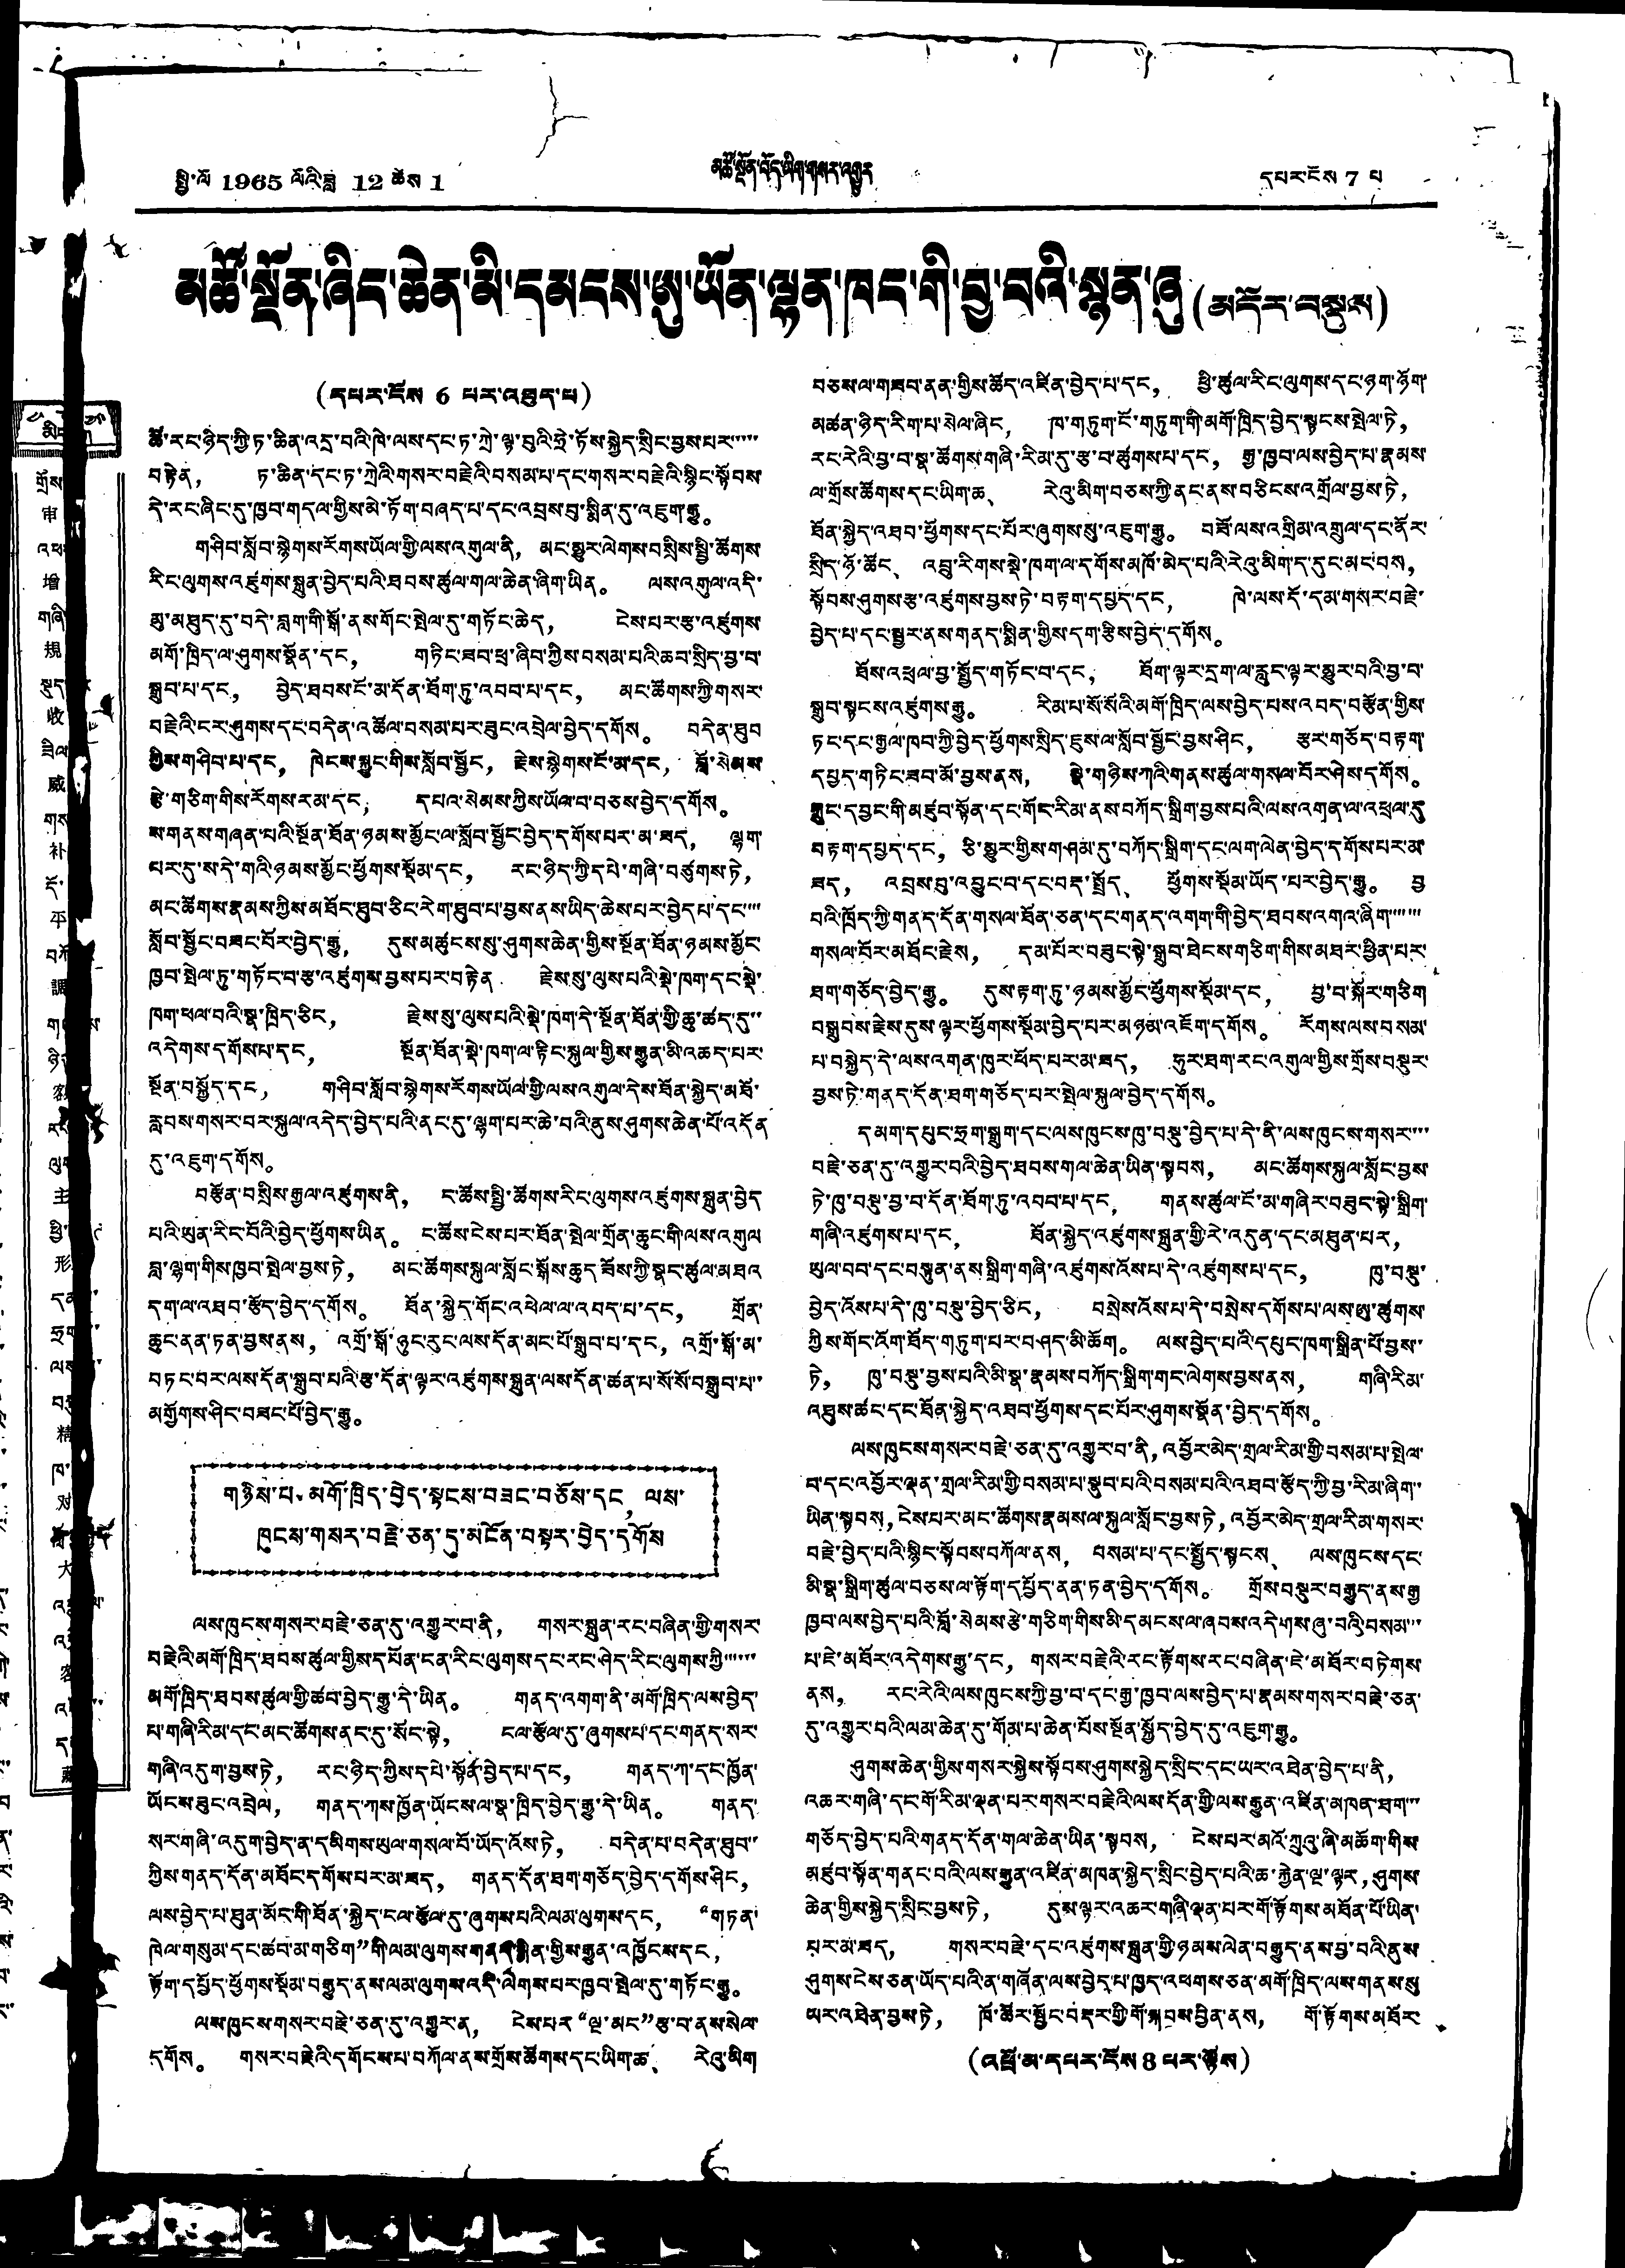མིང ག
གྲོས
审
འཕ
增
གཞི
規
སྡུད  ར
收
ཟིལ
威
གས
补
དོ་
平
བཀོ
調
ག   ས་
ཉིད་
客
རང་
ལུང
主
ཕྱི་  ཊ
形
དམ  ་
ཧྲག  ་་
ལས  ་
བ
精
ཁ་
对
བློ  སྐྱེད
大
འ  ལ་
འ
客
འ  ་་
ད
藏
སྤྱི་ལོ 1965 ལོའི་ཟླ་ 12 ཚེས 1 མཚོ་སྔོན་བོད་ཡིག་གསར་འགྱུར དཔར་ངོས 7 པ
མཚོ་སྔོན་ཞིང་ཆེན་མི་དམངས་ཨུ་ཡོན་ལྷན་ཁང་གི་བྱ་བའི་སྙན་ཞུ(མདོར་བསྡུས)
(དཔར་ངོས 6 པར་འཐུད་པ)
ཚོ་རང་ཉིད་ཀྱི་ཏ་ཆིན་འདྲ་བའི་ཁེ་ལས་དང་ཏ་ཀྲེ་ལྟ་བུའི་ཧྲེ་ཏོས་སྐྱེད་སྲིང་བྱས་པར་་་་་
བརྟེན， ཏ་ཆིན་དང་ཏ་ཀྲེའི་གསར་བརྗེའི་བསམ་པ་དང་གསར་བརྗེའི་སྙིང་སྟོབས་
དེ་རང་ཞིང་དུ་ཁྱབ་གདལ་གྱིས་མེ་ཏོག་བཞད་པ་དང་འབྲས་བུ་སྨིན་དུ་འཇུག་རྒྱུ。
གཤིབ་སློབ་སྙེགས་རོགས་ཡོལ་གྱི་ལས་འགུལ་ནི， མང་མྱུར་ལེགས་བསྲིས་སྤྱི་ཚོགས་
རིང་ལུགས་འཛུགས་སྐྲུན་བྱེད་པའི་ཐབས་ཚུལ་གལ་ཆེན་ཞིག་ཡིན。 ལས་འགུལ་འདི་
མུ་མཐུད་དུ་བདེ་བླག་གི་སྒོ་ནས་གོང་སྤེལ་དུ་གཏོང་ཆེད， ངེས་པར་རྩ་འཛུགས་
མགོ་ཁྲིད་ལ་ཤུགས་སྣོན་དང， གཏིང་ཟབ་ཕྲ་ཞིབ་ཀྱིས་བསམ་པའི་ཆབ་སྲིད་བྱ་བ་
སྒྲུབ་པ་དང， བྱེད་ཐབས་ངོ་མ་དོན་ཐོག་ཏུ་འབབ་པ་དང， མང་ཚོགས་ཀྱི་གསར་
བརྗེའི་ངར་ཤུགས་དང་བདེན་འཚོལ་བསམ་པར་ཟུང་འབྲེལ་བྱེད་དགོས。 བདེན་ཐུབ་
ཀྱིས་གཤིབ་པ་དང， ཁེངས་སྐྱུང་གིས་སློབ་སྦྱོང， རྗེས་སྙེགས་ངོ་མ་དང， བློ་སེམས
རྩེ་གཅིག་གིས་རོགས་རམ་དང， དཔའ་སེམས་ཀྱིས་ཡོལ་བ་བཅས་བྱེད་དགོས。
ས་གནས་གཞན་པའི་སྔོན་ཐོན་ཉམས་མྱོང་ལ་སློབ་སྦྱོང་བྱེད་དགོས་པར་མ་ཟད， ལྷག་
པར་དུ་ས་དེ་གའི་ཉམས་མྱོང་ཕྱོགས་སྡོམ་དང， རང་ཉིད་ཀྱི་དཔེ་གཞི་བཙུགས་ཏེ，
མང་ཚོགས་རྣམས་ཀྱིས་མཐོད་ཐུབ་ཅིང་རེག་ཐུབ་པ་བྱས་ནས་ཡིད་ཆེས་པར་བྱེད པ་དང་་་་
སློབ་སྦྱོང་བཟང་པོར་བྱེད་རྒྱུ， དུས་མཚུངས་སུ་ཤུགས་ཆེན་གྱིས་སྔོན་ཐོན་ཉམས་མྱོང་
ཁྱབ་སྤེལ་ཏུ་གཏོང་བ་རྩ་འཛུགས་བྱས་པར་བརྟེན རྗེས་སུ་ལུས་པའི་སྡེ་ཁག་དང་སྡེ་
ཁག་ཕལ་བའི་སྣ་ཁྲིད་ཅིང， རྗེས་སུ་ལུས་པའི་སྡེ་ཁག་དེ་སྔོན་ཐོན་གྱི་ཆུ་ཚད་དུ་་
འདེགས་དགོས་པ་དང， སྔོན་ཐོན་སྡེ་ཁག་ལ་རྟིང་སྐུལ་གྱིས་རྒྱུན་མི་འཆད་པར་
སྔོན་བསྐྱོད་དང，  གཤིབ་སློབ་སྙེགས་རོགས་ཡོལ་གྱི་ལས་འགུལ་དེས་ཐོན་སྐྱེད་མཐོ་
རླབས་གསར་བར་སྐུལ་འདེད་བྱེད་པའི་ནང་དུ་ལྷག་པར་ཆེ་བའི་ནུས་ཤུགས་ཆེན་པོ་འདོན
དུ་འཇུག་དགོས。
བརྩོན་བསྲིས་རྒྱལ་འཛུགས་ནི， ང་ཚོས་སྤྱི་ཚོགས་རིང་ལུགས་འཛུགས་སྐྲུན་བྱེད་
པའི་ཡུན་རིང་བོའི་བྱེད་ཕྱོགས་ཡིན。 ང་ཚོས་ངེས་པར་ཐོན་སྤེལ་གྲོན་ཆུང་གི་ལས་འགུལ
བླ་ལྷག་གིས་ཁྱབ་སྤེལ་བྱས་ཏེ， མང་ཚོགས་སྐུལ་སློང་སྒོས་ཆུད་ཟོས་ཀྱི་སྣང་ཚུལ་མཐའ་
དག་ལ་འཐབ་རྩོད་བྱེད་དགོས。 ཐོན་སྐྱེད་གོང་འཕེལ་ལ་འབད་པ་དང， གྲོན་
ཆུང་ནན་ཏན་བྱས་ནས， འགྲོ་སྒོ་ཉུང་རུང་ལས་དོན་མང་པོ་སྒྲུབ་པ་དང， འགྲོ་སྒོ་མ་
བཏང་བར་ལས་དོན་སྒྲུབ་པའི་རྩ་དོན་ལྟར་འཛུགས་སྐྲུན་ལས་དོན་ཚན་པ་སོ་སོ་བསྒྲུབ་པ་་
མགྱོགས་ཤིང་བཟང་པོ་བྱེད་རྒྱུ。
གཉིས་པ、 མགོ་ཁྲིད་བྱེད་སྟངས་བཟང་བཅོས་དང， ལས་
ཁུངས་གསར་བརྗེ་ཅན་དུ་མངོན་བསྟར་བྱེད་དགོས
ལས་ཁུངས་གསར་བརྗེ་ཅན་དུ་འགྱུར་བ་ནི， གསར་སྐྲུན་རང་བཞིན་གྱི་གསར་
བརྗེའི་མགོ་ཁྲིད་ཐབས་ཚུལ་གྱིས་དཔོན་ངན་རིང་ལུགས་དང་རང་ཤེད་རིང་ལུགས་ཀྱི་་་་་་
མགོ་ཁྲིད་ཐབས་ཚུལ་གྱི་ཚབ་བྱེད་རྒྱུ་དེ་ཡིན。 གནད་འགག་ནི་མགོ་ཁྲིད་ལས་བྱེད་
པ་གཞི་རིམ་དང་མང་ཚོགས་ནང་དུ་སོང་སྟེ， ངལ་རྩོལ་དུ་ཞུགས་པ་དང་གནད་སར་
གཞི་འདུག་བྱས་ཏེ， རང་ཉིད་ཀྱིས་དཔེ་སྟོན་བྱེད་པ་དང， གནད་ཀ་དང་ཁྱོན་
ཡོངས་ཟུང་འབྲེལ， གནད་ཀས་ཁྱོན་ཡོངས་ལ་སྣ་ཁྲིད་བྱེད་རྒྱུ་དེ་ཡིན。 གནད
སར་གཞི་འདུག་བྱེད་ན་དམིགས་ཡུལ་གསལ་བོ་ཡོད་འོས་ཏེ， བདེན་པ་བདེན་ཐུབ་་
ཀྱིས་གནད་དོན་མཐོང་དགོས་པར་མ་ཟད， གནད་དོན་ཐག་གཅོད་བྱེད་དགོས་ཤིང，
ལས་བྱེད་པ་ཐུན་མོང་གི་ཐོན་སྐྱེད་ངལ་རྩོལ་དུ་ཞུགས་པའི་ལམ་ལུགས་དང， “གཏན་
ཁེལ་གསུམ་དང་ཚབ་མ་གཅིག”གི་ལམ་ལུགས་གནད་སྨིན་གྱིས་རྒྱུན་འཁྱོངས་དང，
རྟོག་དཔྱོད་ཕྱོགས་སྡོམ་བརྒྱུད་ནས་ལམ་ལུགས་འདི་ལེགས་པར་ཁྱབ་སྤེལ་དུ་གཏོང་རྒྱུ。
ལས་ཁུངས་གསར་བརྗེ་ཅན་དུ་འགྱུར་ན， ངེས་པར“ལྔ་མང”རྩ་བ་ནས་སེལ་
དགོས。 གསར་བརྗེའི་དགོངས་པ་བཀོལ་ནས་གྲོས་ཚོགས་དང་ཡིག་ཆ、 རེའུ་མིག་
བཅས་ལ་གཟབ་ནན་གྱིས་ཚོད་འཛིན་བྱེད་པ་དང， ཕྱི་ཚུལ་རིང་ལུགས་དང་ཉག་ཉོག་
མཚན་ཉིད་རིག་པ་སེལ་ཞིང， ཁ་གཏུག་ངོ་གཏུག་གི་མགོ་ཁྲིད་བྱེད་སྟངས་སྤེལ་ཏེ，
རང་རེའི་བྱ་བ་སྣ་ཚོགས་གཞི་རིམ་དུ་རྩ་བ་ཚུགས་པ་དང， རྒྱ་ཁྱབ་ལས་བྱེད་པ་རྣམས་
ལ་གྲོས་ཚོགས་དང་ཡིག་ཆ、 རེའུ་མིག་བཅས་ཀྱི་ནང་ནས་བཅིངས་འགྲོལ་བྱས་ཏེ，
ཐོན་སྐྱེད་འཐབ་ཕྱོགས་དང་པོར་ཞུགས་སུ་འཇུག་རྒྱུ。 བཟོ་ལས་འགྲིམ་འགྲུལ་དང་ནོར་
སྲིད་ཉོ་ཚོང、 འབྲུ་རིགས་སྡེ་ཁག་ལ་དགོས་མཁོ་མེད་པའི་རེའུ་མིག་ད་དུང་མང་བས，
སྟོབས་ཤུགས་རྩ་འཛུགས་བྱས་ཏེ་བརྟག་དཔྱད་དང， ཁེ་ལས་དོ་དམ་གསར་བརྗེ་
བྱེད་པ་དང་སྦྱར་ནས་གནད་སྨིན་གྱིས་དག་རྩིས་བྱེད་དགོས。
ཐོས་འཕྲལ་བྱ་སྤྱོད་གཏོང་བ་དང， ཐོག་ལྟར་དྲུག་ལ་རླུང་ལྟར་མྱུར་བའི་བྱ་བ་
སྒྲུབ་སྟངས་འཛུགས་རྒྱུ。 རིམ་པ་སོ་སོའི་མགོ་ཁྲིད་ལས་བྱེད་པས་འབད་བརྩོན་གྱིས་
ཏང་དང་རྒྱལ་ཁབ་ཀྱི་བྱེད་ཕྱོགས་སྲིད་ཇུས་ལ་སློབ་སྦྱོང་བྱས་ཤིང， རྩར་གཅོད་བརྟག་
དཔྱད་གཏིང་ཟབ་མོ་བྱས་ནས， སྣེ་གཉིས་ཀའི་གནས་ཚུལ་གསལ་བོར་ཤེས་དགོས。
ཀྲུང་དབྱང་གི་མཛུབ་སྟོན་དང་གོང་རིམ་ནས་བཀོད་སྒྲིག་བྱས་པའི་ལས་འགན་ལ་འཕྲལ་དུ
བརྟག་དཔྱད་དང， ཅི་མྱུར་གྱིས་གཤམ་དུ་བཀོད་སྒྲིག་དང་ལག་ལེན་བྱེད་དགོས་པར་མ་
ཟད， འབྲས་བུ་འབྱུང་བ་དང་བརྡ་སྤྲོད、 ཕྱོགས་སྡོམ་ཡོད་པར་བྱེད་རྒྱུ。 བྱ
བའི་ཁྲོད་ཀྱི་གནད་དོན་གསལ་ཐོན་ཅན་དང་གནད་འགག་གི་བྱེད་ཐབས་འགའ་ཞིག་་་་་་
གསལ་བོར་མཐོང་རྗེས， དམ་པོར་བཟུང་སྟེ་སྒྲུབ་ཐེངས་གཅིག་གིས་མཐར་ཕྱིན་པར་
ཐག་གཅོད་བྱེད་རྒྱུ。 དུས་རྟག་ཏུ་ཉམས་མྱོང་ཕྱོགས་སྡོམ་དང， བྱ་བ་སྐོར་གཅིག
བསྒྲུབས་རྗེས་དུས་ལྟར་ཕྱོགས་སྡོམ་བྱེད་པར་མཉམ་འཇོག་དགོས。 རོགས་ལས་བསམ་
པ་བསྐྱེད་དེ་ལས་འགན་ཁུར་ཕོད་པར་མ་ཟད， ཧུར་ཐག་རང་འགུལ་གྱིས་གྲོས་བསྡུར་
བྱས་ཏེ་གནད་དོན་ཐག་གཅོད་པར་སྤེལ་སྐུལ་བྱེད་དགོས。
དམག་དཔུང་ཧྲག་སྒྲུག་དང་ལས་ཁུངས་ཁུ་བསྡུ་བྱེད་པ་དེ་ནི་ལས་ཁུངས་གསར་་་་
བརྗེ་ཅན་དུ་འགྱུར་བའི་བྱེད་ཐབས་གལ་ཆེན་ཡིན་སྟབས， མང་ཚོགས་སྐུལ་སློང་བྱས་
ཏེ་ཁུ་བསྡུ་བྱ་བ་དོན་ཐོག་ཏུ་འབབ་པ་དང， གནས་ཚུལ་ངོ་མ་གཞིར་བཟུང་སྟེ་སྒྲིག་
གཞི་འཛུགས་པ་དང， ཐོན་སྐྱེད་འཛུགས་སྐྲུན་གྱི་རེ་འདུན་དང་མཐུན་པར，
ཡུལ་བབ་དང་བསྟུན་ནས་སྒྲིག་གཞི་འཛུགས་འོས་པ་དེ་འཛུགས་པ་དང， ཁུ་བསྡུ་
བྱེད་འོས་པ་དེ་ཁུ་བསྡུ་བྱེད་ཅིང， བསྲེས་འོས་པ་དེ་བསྲེས་དགོས་པ་ལས་ཨུ་ཚུགས་
ཀྱིས་གོང་འོག་ཐོད་གཏུག་པར་བཤད་མི་ཆོག。 ལས་བྱེད་པའི་དཔུང་ཁག་སྒྲིན་པོ་བྱས་་
ཏེ， ཁུ་བསྡུ་བྱས་པའི་མི་སྣ་རྣམས་བཀོད་སྒྲིག་གང་ལེགས་བྱས་ནས， གཞི་རིམ་
འཐུས་ཚང་དང་ཐོན་སྐྱེད་འཐབ་ཕྱོགས་དང་པོར་ཤུགས་སྣོན་བྱེད་དགོས。
ལས་ཁུངས་གསར་བརྗེ་ཅན་དུ་འགྱུར་བ་ནི，འབྱོར་མེད་གྲལ་རི་མ་གྱི་བསམ་པ་སྤེལ་
བ་དང་འབྱོར་ལྡན་གྲལ་རིམ་གྱི་བསམ་པ་སྣུབ་པའི་བསམ་པའི་འཐབ་རྩོད་ཀྱི་བྱ་རིམ་ཞིག་་
ཡིན་སྟབས，ངེས་པར་མང་ཚོགས་རྣམས་ལ་སྐུལ་སློང་བྱས་ཏེ，འབྱོར་མེད་གྲལ་རིམ་གསར་
བརྗེ་བྱེད་པའི་སྙིང་སྟོབས་བཀོལ་ནས， བསམ་པ་དང་སྤྱོད་སྟངས、 ལས་ཁུངས་དང་
མི་སྣ་སྒྲིག་ཚུལ་བཅས་ལ་རྟོག་དཔྱོད་ནན་ཏན་བྱེད་དགོས。 གྲོས་བསྡུར་བརྒྱུད་ནས་རྒྱ་
ཁྱབ་ལས་བྱེད་པའི་བློ་སེམས་རྩེ་གཅིག་གིས་མི་དམངས་ལ་ཞབས་འདེགས་ཞུ་བའི་བསམ་་་
པ་ཇེ་མཐོར་འདེགས་རྒྱུ་དང， གསར་བརྗེའི་རང་རྟོགས་རང་བཞིན་ཇེ་མཐོར་བཏེགས་
ནས， རང་རེའི་ལས་ཁུངས་ཀྱི་བྱ་བ་དང་རྒྱ་ཁྱབ་ལས་བྱེད་པ་རྣམས་གསར་བརྗེ་ཅན་
དུ་འགྱུར་བའི་ལམ་ཆེན་དུ་གོམ་པ་ཆེན་པོས་སྔོན་སྐྱོད་བྱེད་དུ་འཇུག་རྒྱུ。
ཤུགས་ཆེན་གྱིས་གསར་སྐྱེས་སྟོབས་ཤུགས་སྐྱེད་སྲིང་དང་ཡར་འཐེན་བྱེད་པ་ནི，
འཆར་གཞི་དང་གོ་རིམ་ལྡན་པར་གསར་བརྗེའི་ལས་དོན་གྱི་ལས་རྒྱུན་འཛིན་མཁན་ཐག་་་
གཅོད་བྱེད་པའི་གནད་དོན་གལ་ཆེན་ཡིན་སྟབས， ངེས་པར་མའོ་ཀྲུའུ་ཞི་མཆོག་གིས་
མཛུབ་སྟོན་གནང་བའི་ལས་རྒྱུན་འཛིན་མཁན་སྐྱེད་སྲིང་བྱེད་པའི་ཆ་རྐྱེན་ལྔ་ལྟར，ཤུགས་
ཆེན་གྱིས་སྐྱེད་སྲིང་བྱས་ཏེ， དུས་ལྟར་འཆར་གཞི་ལྡན་པར་གོ་རྟོགས་མཐོན་པོ་ཡིན་
པར་མ་ཟད， གསར་བརྗེ་དང་འཛུགས་སྐྲུན་གྱི་ཉམས་ལེན་བརྒྱུད་ནས་བྱ་བའི་ནུས་
ཤུགས་ངེས་ཅན་ཡོད་པའི་ན་གཞོན་ལས་བྱེད་པ་ཁྱད་འཕགས་ཅན་མགོ་ཁྲིད་ལས་གནས་སུ
ཡར་འཐེན་བྱས་ཏེ， ཁོ་ཚོར་སྦྱོང་བརྡར་གྱི་གོ་སྐབས་བྱིན་ནས， གོ་རྟོགས་མཐོར་
(འཕྲོ་མ་དཔར་ངོས 8 པར་ལྟོས)
